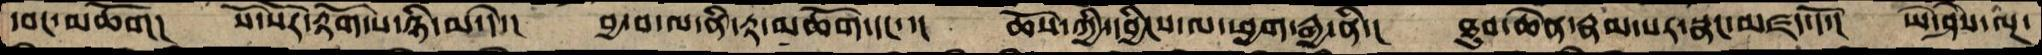དབང་མཆོག།  སོ་སོར་རྟོག་པ་་ཉི་མ་དེ་།  བྱ་བ་ལ་ནི་རྟ་མཆོག་དང་་།  ཆོས་ཀྱི་དབྱིངས་ལ་ཕྱག་རྒྱ་ནི་།  ཐུབ་ཆེན་རྣམ་པར་སྣང་མཛད་དོ་།  ཡེ་ཤེས་ལྔ་
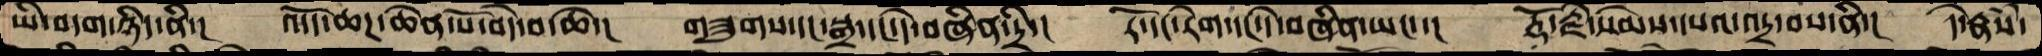ཡི་བདག་ཉིད་ནི་།  འདོད་ཆཌ་ཆེན་པོ་བདེ་བ་ཆེ་།  གཟུགས་དང་སྒྲ་དང་དེ་བཞིན་དྲི་།  རོ་དང་རེག་དང་དེ་བཞིན་ཡང་་།  རྡོ་རྗེ་སེམས་དཔའ་འདྲ་བས་ནི་།  དེ་རྣཾས་
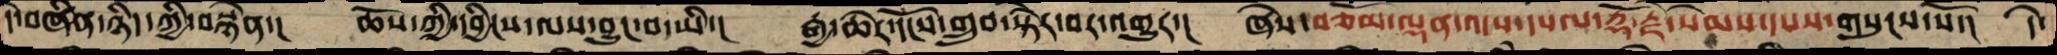དེ་བཞིན་ཉིད་ཀྱི་བསྙེན་།  ཆོས་ཀྱི་དབྱིངས་ལས་བྱུང་བ་ཡི་།  རྒྱ་ཆེར་དངོས་གྲུབ་སྟེར་བར་འགྱུར་།  ཞེས་བཅོམ་ལྡན་འདས་དཔལ་རྡོ་རྗེ་སེམས་དཔས་གསུངས་སོ་།  དེ་
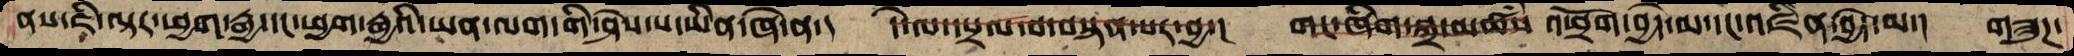ནས་ཇི་ལྟར་ཕྱག་རྒྱ་དང་ཕྱག་རྒྱའི་ཡན་ལག་གི་ཤེས་པ་ཡིན་ཞེ་ན་།  དེ་ལ་དཔྲལ་བ་བསྟན་པར་བྱ་།  གང་ཞིག་སྐྲ་མཚཾས་ འཕྲོག་བྱེད་མ་དང་འཛིན་བྱེད་མ་།  གཟུཌ་
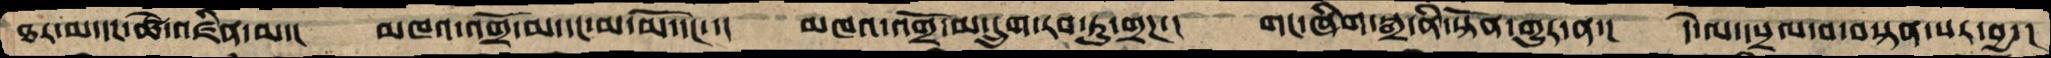ཐར་མ་དང་ཚེ་འཛིན་མ་།  མཁའ་འགྲོ་མ་དང་མ་མོ་དང་་།  མཁའ་འགྲོ་མ་དྲུག་རབ་ཏུ་གྲཌ་།  གང་ཞིག་སྒྲ་ནི་སྟོན་གྱུར་ན་།  དེ་ལ་དཔྲལ་བ་བསྟན་པར་བྱ་།
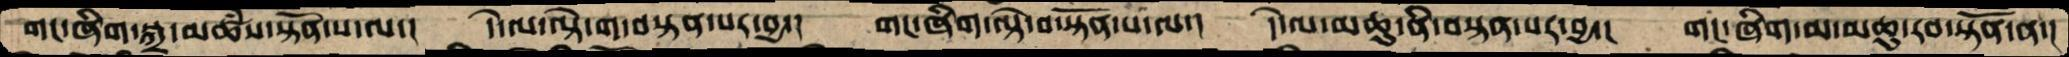གང་ཞིག་སྐྲ་མཚཾས་སྟོན་པ་ལ་།  དེ་ལ་ལྟེ་ག་བསྟན་པར་བྱ་།  གང་ཞིག་ལྟེ་བ་སྟོན་པ་ལ་།  དེ་ལ་མཆུ་ནི་བསྟན་པར་བྱ་།  གང་ཞིག་མ་མཆུ་རབ་སྟོན་ན་།
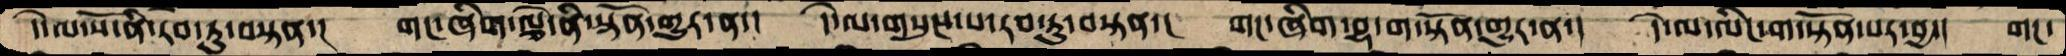དེ་ལ་སོ་ནི་རབ་ཏུ་བསྟན་།  གང་ཞིག་ལྕེ་ནི་སྟོན་གྱུར་ན་།  དེ་ལ་གསུངས་པ་རབ་ཏུ་བསྟན་།  གང་ཞིག་བྷ་ག་སྟོན་གྱུར་ན་།  དེ་ལ་ལིང་ག་སྟོན་པར་བྱ་།  གང་
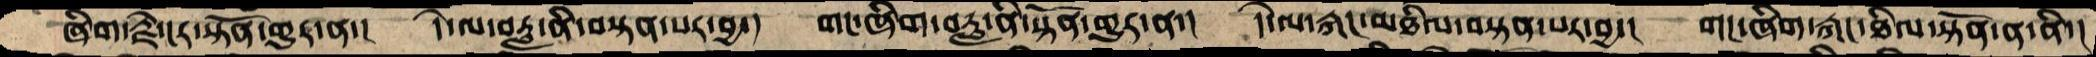ཞིག་རྗེ་ངར་སྟོན་གྱུར་ན་།  དེ་ལ་བརླ་ནི་བསྟན་པར་བྱ་།  གང་ཞིག་བརླ་ནི་སྟོན་གྱུར་ན་།  དེ་ལ་རྐང་མཐིལ་བསྟན་པར་བྱ་།  གང་ཞིག་རྐང་ཐིལ་སྟོན་ན་ནི་།
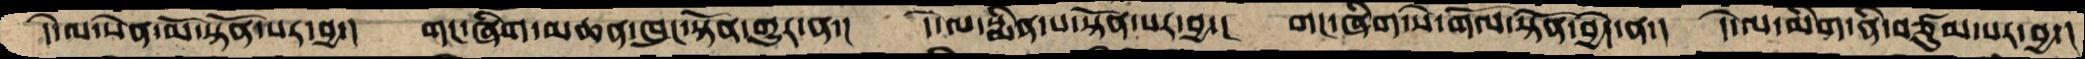དེ་ལ་སེན་མོ་སྟོན་པར་བྱ་།  གང་ཞིག་མཆན་ཁུང་སྟོན་གྱུར་ན་།  དེ་ལ་སྨིན་པ་སྟོན་པར་བྱ་།  གང་ཞིག་སེ་གོལ་སྟོན་བྱེད་ན་།  དེ་ལ་མིག་ནི་བཙུམ་པར་བྱ་།
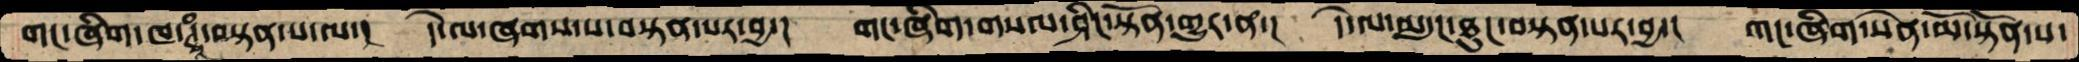གང་ཞིག་ཁ་ཊྭཱཾ་བསྟན་པ་ལ་།  དེ་ལ་ཞགས་པ་བསྟན་པར་བྱ་།  གང་ཞིག་གསལ་ཤིང་སྟོན་གྱུར་ན་།  དེ་ལ་མདུང་ཐུང་བསྟན་པར་བྱ་།  གང་ཞིག་སེན་མོ་སྟོན་པ་
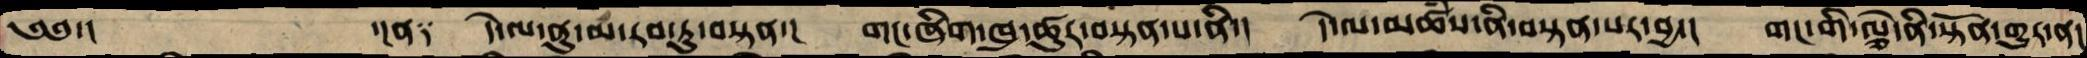༄༅་།     ་།ན༑  དེ་ལ་ནུ་མ་རབ་ཏུ་བསྟན་།  གང་ཞིག་ཁུ་ཚུར་བསྟན་པ་ནི་།  དེ་ལ་མཚཾས་ནི་བསྟན་པར་བྱ་།  གང་གི་ལྕེ་ནི་སྟོན་གྱུར་ན།
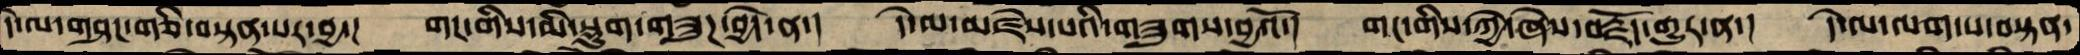དེ་ལ་གཤང་གཅི་བསྟན་པར་བྱ་།  གང་གིས་མི་སྡུག་གཟུཌ་བྱེད་ན་།  དེ་ལ་མཛེས་པའི་གཟུགས་བྱའོ་།  གང་གིས་ཀྱེ་ཞེས་བརྗོད་གྱུར་ན་།  དེ་ལ་ལག་པ་བསྟན་
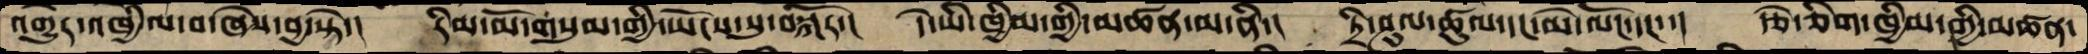འགྱུར་འཁྱིལ་བ་ཞེས་བྱ་སྟེ་།  རིམ་མོ་གསུམ་གྱི་ཡོངས་སུ་བསྐོར་།  དེ་ཡི་ཁྱིམ་གྱི་མཚན་མ་ནི་།  ཏྲི་ཤུལ་ཚུལ་དང་མེ་ལོང་དང་་།  རྩེ་ཅིག་ཁྱིམ་གྱི་མཚན་
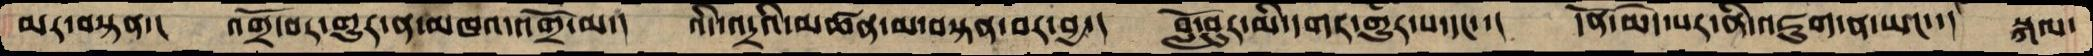མར་བསྟན་།  འགྲོ་བར་གྱུར་ན་མཁའ་འགྲོ་མ་།  འདི་འདྲའི་མཚན་མ་བསྟན་བར་བྱ་།  བློ་བུར་མི་དགར་གྱུར་པ་དང་་།  དོན་མེད་པར་ནི་འཇུག་ན་ཡང་།  སྐལ་
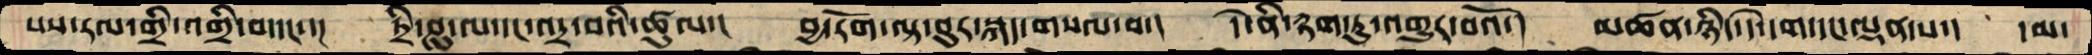པས་རལ་གྲི་འགྲི་བ་དང་་།  ཏྲི་ཤུ་ལ་དང་འདྲ་བའི་ཚུལ་།  བྱ་རོག་ལྟ་བུར་སྐད་གསལ་བ་།  དེ་ནི་རྟག་ཏུ་འགྱུར་བའོ་།  མཚན་ཉིད་དེ་དག་དང་ལྡན་པ་།  དམ་
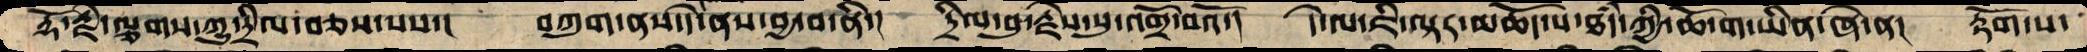རྡོ་རྗེ་ལྕགས་ཀྱུ་དྲིལ་བཅས་པས་།  བཀུག་ནས་དེ་ནས་བྱ་བ་ནི་།  དྲིལ་བུ་རྗེསུ་སུ་འགྲོ་བའོ་།   དེ་ལ་ཇི་ལྟར་མཆོད་པ་ཐདཾ་ཀྱི་ཆོ་ག་ཡིན་ཞེ་ན་།  རྟོག་པ་
